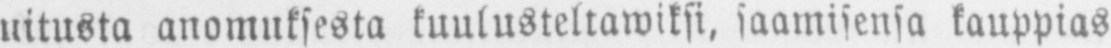uitusta anomuksesta kuulusteltawiksi, saamisensa kauppias
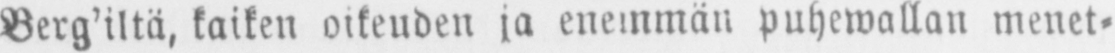Berg'iltä, kaiken oikeuden ja enemmän puhewallan menet-
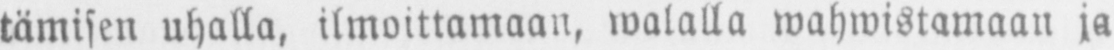tämisen uhalla, ilmoittamaan, walalla wahwistamaan ja
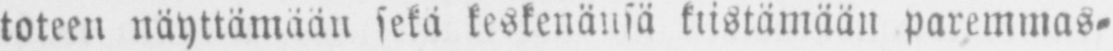toteen näyttämään sekä keskenänsä kiistämään paremmas-
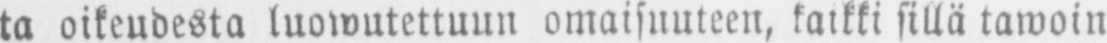ta oikeudesta luowutettuun omaisuuteen, kaikki sillä tawoin
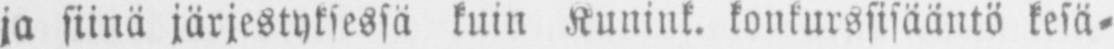ja siinä järjestyksessä kuin Kunink. konkurssisääntö kesä-
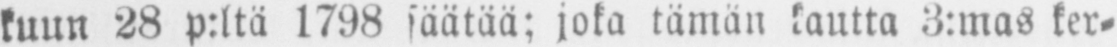kuun 28 p:ltä 1798 säätää; joka tämän kautta 3:mas ker-
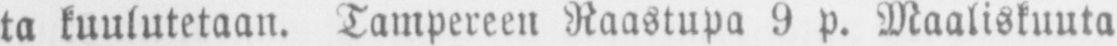ta kuulutetaan. Tampereen Raastupa 9 p. Maaliskuuta
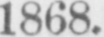1868.
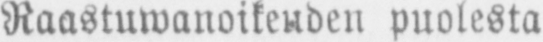Raastuwanoikeuden puolesta:
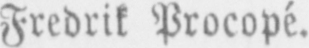Fredrik Procopé.
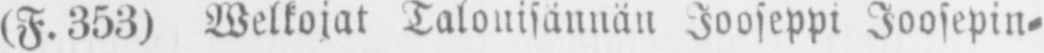(F. 353) Welkojat Talonisännän Jooseppi Joosepin-
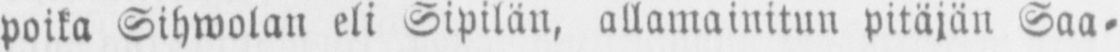poika Sihwolan eli Sipilän, allamainitun pitäjän Saa-
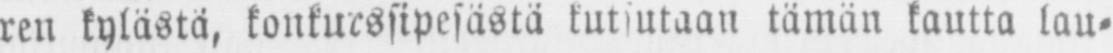ren kylästä, konkurssipesästä kutsutaan tämän kautta lau-
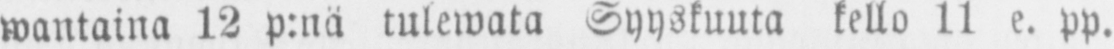wantaina 12 p:nä tulewata Syyskuuta kello 11 e. pp.
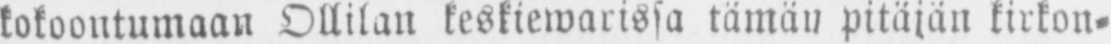kokoontumaan Ollilan keskiewarissa tämän pitäjän kirkon-
